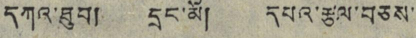དཀའ་ཐུབ། དྲང་མོ། དཔའ་རྩལ་བཅས་
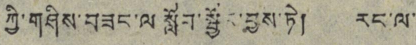ཀྱི་གཤིས་བཟང་ལ སློབ་སྦྱོར་བྱས་ཏེ། རང་ལ་
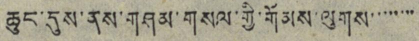ཆུང་དུས་ནས་གཤམ་གསལ་གྱི་གོམས་ལུགས་་་་་་་་
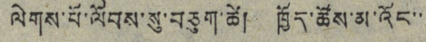ལེགས་པོ་ལོབས་སུ་བཅུག་ཚེ། ཁྱོད་ཚོས་མ་འོང་་
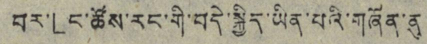བར་「ང་ཚོས་རང་གི་བདེ་སྐྱིད་ཡིན་པའི་གཞོན་ནུ།
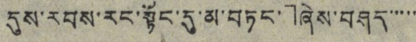དུས་རབས་རང་སྟོང་དུ་མ་བཏང་」ཞེས་བཤད་་་་་
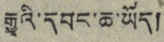རྒྱུའི་དབང་ཆ་ཡོད།
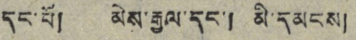དང་པོ། མེས་རྒྱལ་དང་། མི་དམངས།
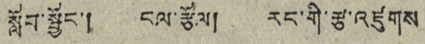སློབ་སྦྱོང་། ངལ་རྩོལ། རང་གི་རྩ་འཛུགས་
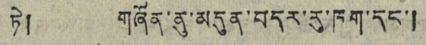ཏེ། གཞོན་ནུ་མདུན་བདར་རུ་ཁག་དང་།
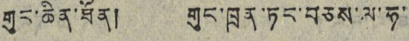གུང་ཆིན་ཐོན། གུང་ཁྲན་ཏང་བཅས་ལ་ཧ་
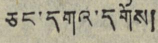ཅང་དགའ་དགོས།
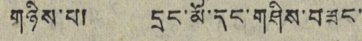གཉིས་པ། དྲང་མོ་དང་གཤིས་བཟང་
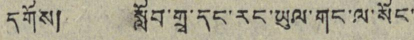དགོས། སློབ་གྲྭ་དང་རང་ཡུལ་གང་ལ་སོང་
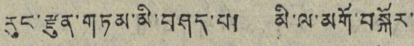རུང་རྫུན་གཏམ་མི་བཤད་པ། མི་ལ་མགོ་བསྐོར་
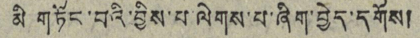མི གཏོང་བའི་བྱིས་པ་ལེགས་པ་ཞིག་བྱེད་དགོས།
